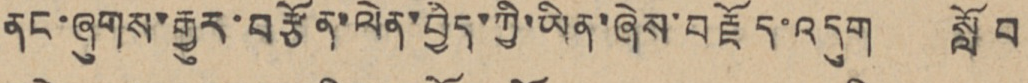ནང་ཞུགས་རྒྱུར་བརྩོན་ལེན་བྱེད་ཀྱི་ཡིན་ཞེས་བརྗོད་འདུག སློབ
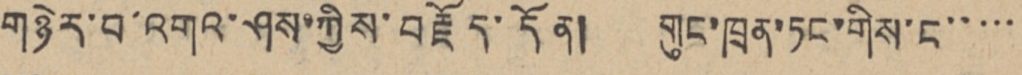གཉེར་བ་འགའ་ཤས་ཀྱིས་བརྗོད་དོན། གུང་ཁྲན་ཏང་གིས་ང་་་་་
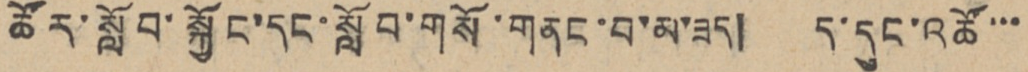ཚོར་སློབ་སྐྱོང་དང་སློབ་གསོ་གནང་བ་མ་ཟད། ད་དུང་འཚོ་་་
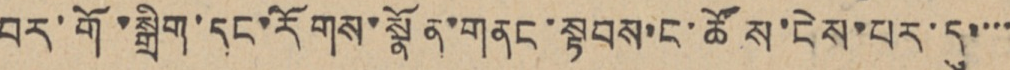བར་གོ་སྒྲིག་དང་རོགས་སྣོན་གནང་སྟབས་ང་ཚོས་ངེས་པར་དུ་་་་
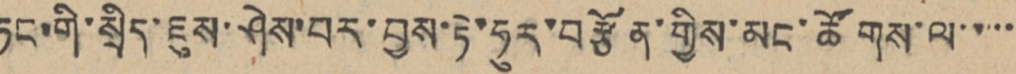ཏང་གི་སྲིད་ཇུས་ཤེས་པར་བྱས་ཏེ་ཧུར་བརྩོན་གྱིས་མང་ཚོགས་ལ་་་་
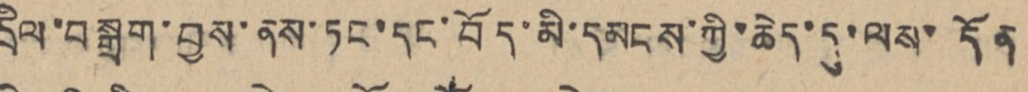དྲིལ་བསྒྲག་བྱས་ནས་ཏང་དང་བོད་མི་དམངས་ཀྱི་ཆེད་དུ་ལས་དོན
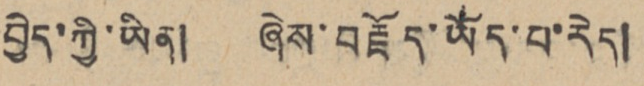བྱེད་ཀྱི་ཡིན། ཞེས་བརྗོད་ཡོད་པ་རེད།
